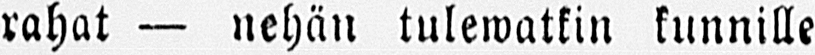rahat — nehän tulewatkin kunnille
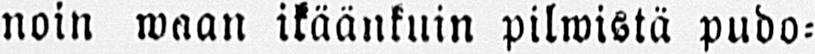noin waan ikäänkuin pilwistä pudo-
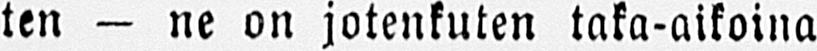ten — ne on jotenkuten taka-aikoina
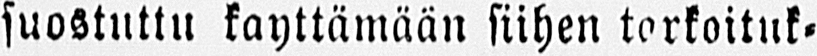suostuttu käyttämään siihen tarkoituk-
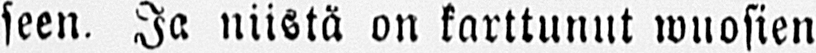seen. Ja niistä on karttunut wuosien
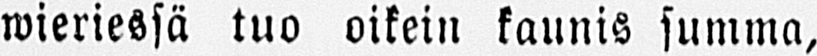wieriessä tuo oikein kaunis summa,
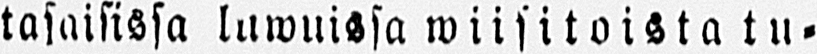tasaisissa luwuissa wiisitoista tu-
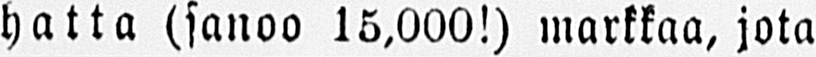hatta (sanoo 15,000!) markkaa, jota
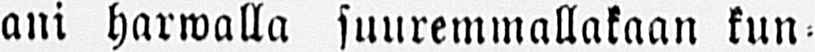ani harwalla suuremmallakaan kun-
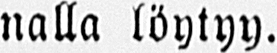nalla löytyy.
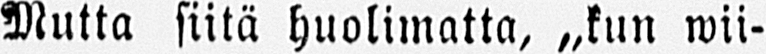Mutta siitä huolimatta, „kun wii-
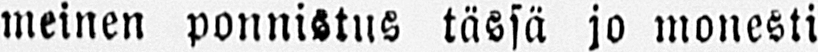meinen ponnistus tässä jo monesti
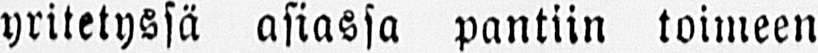yritetyssä asiassa pantiin toimeen
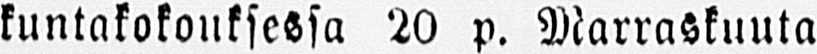kuntakokouksessa 20 p. Marraskuuta
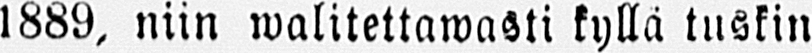1889, niin walitettawasti kyllä tuskin
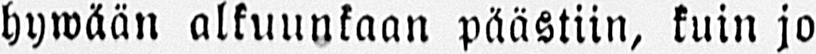hywään alkuunkaan päästiin, kuin jo
